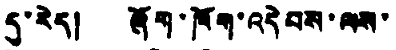དུ་རེད། ཞོག་ཁོག་འདེབས་ལས་
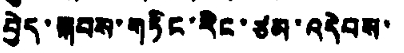བྱེད་སྐབས་གཏིང་རིང་ཙམ་འདེབས་
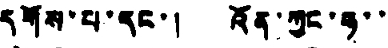དགོས་པ་དང་། འོན་ཀྱང་ཧ་་
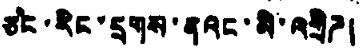ཅང་རིང་དྲགས་ནའང་མི་འགྲིཌ།
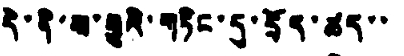དེ་ནི་ས་རྒྱུའི་གཏིང་དུ་དྲོད་ཚད་་
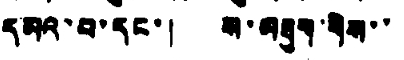དམའ་བ་དང་། ས་མཐུག་གིས་་
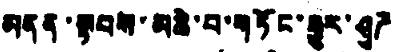མནན་སྟབས་མཆེ་བ་གཏོང་རྒྱུར་ཤུཌ
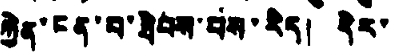རྐྱེན་ངན་བ་ཐེབས་པས་རེད། དེར་
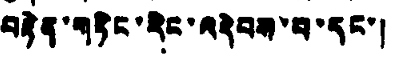བརྟེན་གཏིང་རིང་འདེབས་པ་དང་།
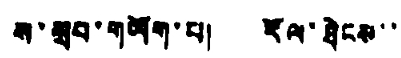ས་སྲབ་གཡོག་པ། རོལ་ཐེངས་་
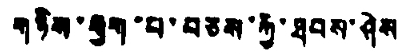གཉིས་རྒྱག་པ་བཅས་ཀྱི་ཐབས་ཤེས
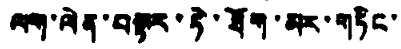ལག་ལེན་བསྟར་ཏེ་ཐོག་མར་གཏིང་
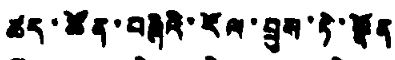ཚད་ཚོན་བཞིའི་རོལ་བྲུས་ཏེ་སྣོན
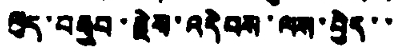ལུད་བསྒྲུབ་རྗེས་འདེབས་ལས་བྱེད་་
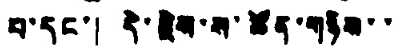པ་དང་། དེ་རྗེས་ས་ཚོན་གཉིས་་
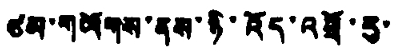ཙམ་གཡོགས་ནས་ཉི་འོད་འཕྲོ་རུ་
